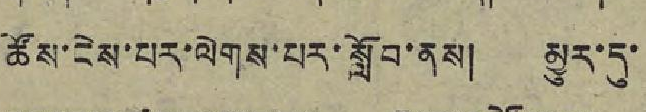ཚོས་ངེས་པར་ལེགས་པར་སློབ་ནས། མྱུར་དུ་
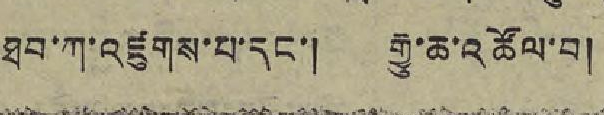ཐབ་ཀ་འཛུགས་པ་དང་། རྒྱུ་ཆ་འཚོལ་བ།
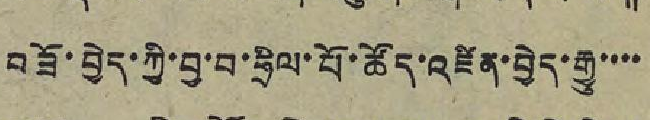བཟོ་བྱེད་ཀྱི་བྱ་བ་ཧྲིལ་པོ་ཚོད་འཛིན་བྱེད་རྒྱུ་་་་
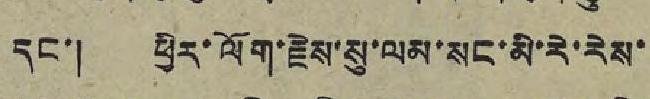དང་། ཕྱིར་ལོག་རྗེས་སུ་ལམ་སང་མི་རེ་རེས་
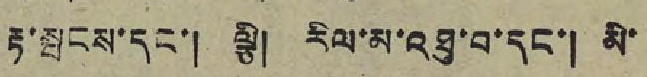རྟ་སྤངས་དང་། ལྕི། རིལ་མ་འཐུ་བ་དང་། མི་
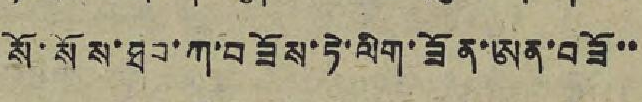སོ་སོས་ཐབ་ཀ་བཟོས་ཏེ་ལིག་ཟོན་ཨན་བཟོ་་
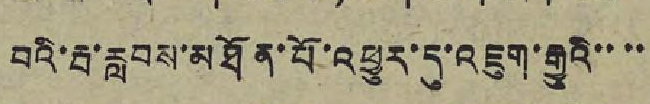བའི་རྦ་རླབས་མཐོན་པོ་འཕྱུར་དུ་འཇུག་རྒྱུའི་་་་
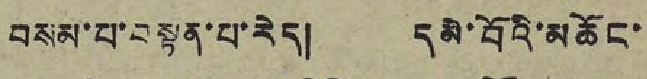བསམ་པ་བསྟན་པ་རེད། དམེ་བོའི་མཆོང་
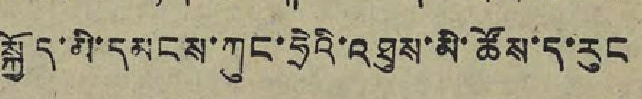སྐྱོད་མི་དམངས་ཀུང་ཧྲིའི་འཐུས་མི་ཚོས་ད་རུང
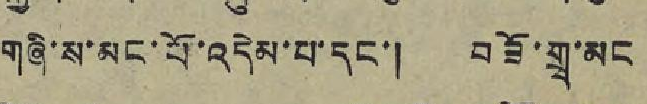གཞི་ས་མང་པོ་འདེམ་པ་དང་། བཟོ་གྲྭ་མང
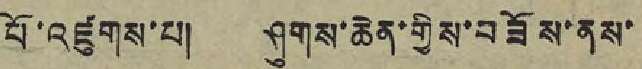པོ་འཛུགས་པ། ཤུགས་ཆེན་གྱིས་བཟོས་ནས་
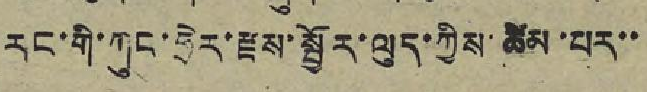རང་གི་ཀུང་ཧྲེར་རྫས་སྦྱོར་ལུད་ཀྱིས་ཚིམ་པར་་
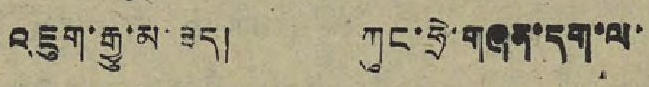འཇུག་རྒྱུ་མ་ཟད། ཀུང་ཧྲེ་གཞན་དག་ལ་
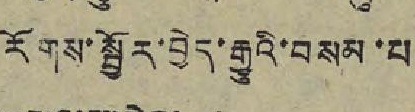རོགས་སྦྱོར་བྱེད་རྒྱུའི་བསམ་པ
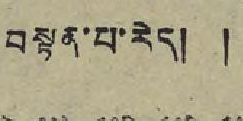བསྟན་པ་རེད། །
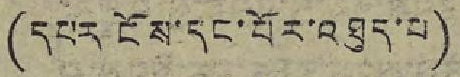(དཔར་ངོས་དང་པོར་འཐུད་པ)
